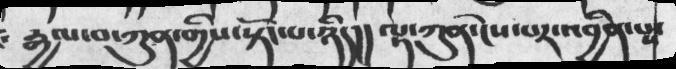རྒྱལ་བ་ཀུན་གྱིས་སྟོང་པ་ཉིད།།   ལྟ་ཀུན་ངེས་པར་འབྱིན་པས་
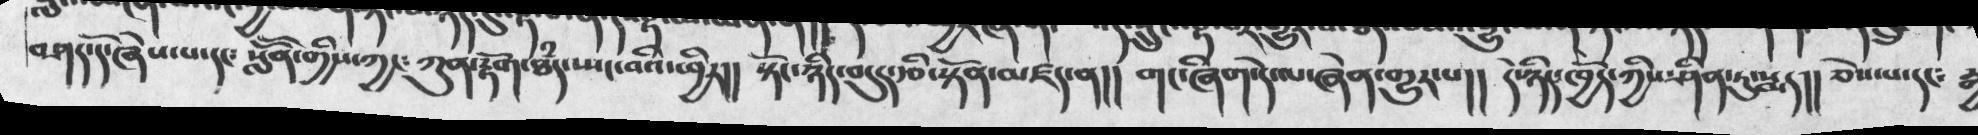བཤད་དོ་ཞེས་པ་དང་  སློོན་གྱིས་ཀྱང་ཀུན་རྟོག་ཐཾད་སྤང་བའི་ཕྱིར།།  སྟོང་ཉིད་བདུད་རྩི་སྟོན་མཛད་ན།།  གང་ཞིག་དེ་ལ་ཞེན་གྱུར་པ།།   དེ་ཉིད་ཁྱོད་ཀྱིས་ཤིན་ཏུ་སྨད།། ཅེས་པ་དང༴
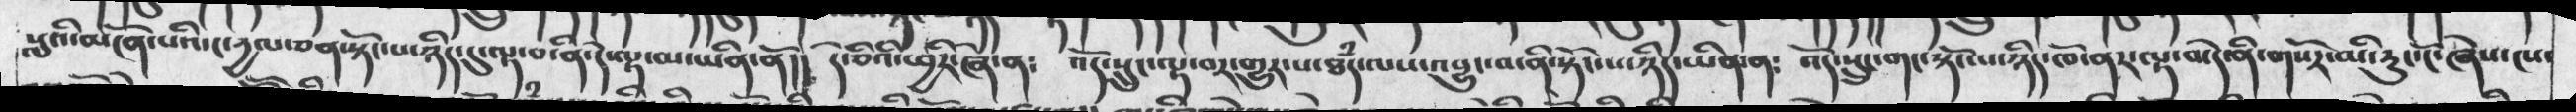སླའི་མངོན་པའི་ང་དྱལ་ཅན་སྟོང་པ་ཉིད་དུ་ལྟ་བ་ནི་དེ་ལྟ་མ་ཡིན་ནོ།།  དེ་ཅིའི་ཕྱིར་ཞེ་ན༴   འོད་སྲུང་ལྟ་བར་གྱུར་པ་ཐཾད་ལས་འབྱུང་བ་ནི་སྟོང་པ་ཉིད་ཡིན་ན༴   འོད་སྲུང་གང་སྟོང་པ་ཉིད་ཁོ་ནར་ལྟ་བ་དེ་ནི་གསོར་མི་རུང་ངོ་ཞེས་ངས་
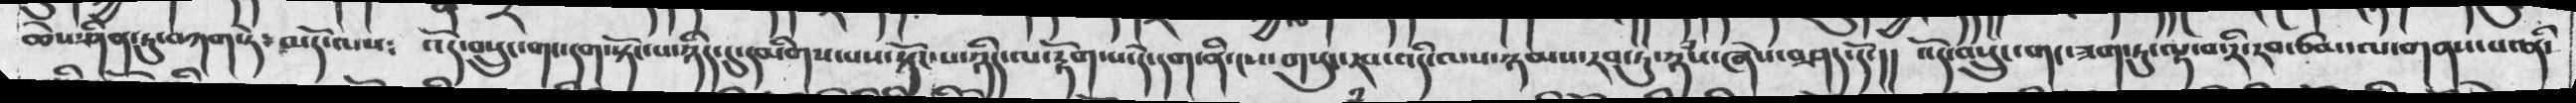ཆེས་ཤིན་ཏུ་བཀག་ཏེ་མདོ་ལས༴  འོད་བསྲུང་གང་དག་སྟོང་པ་ཉིད་དུ་དམིགས་པས་སྟོང་པ་ཉིད་ལ་རྟོག་པ་དེ་དག་ནི་ངས་གསུང་རབ་འདི་ལས་ཉཾས་ཞེས་བཤད་དོ་།།  འོད་བསྲུང་གང་ཟག་ཏུ་ལྟ་བ་རི་རབ་ཙམ་ལ་གནས་པ་ནི་
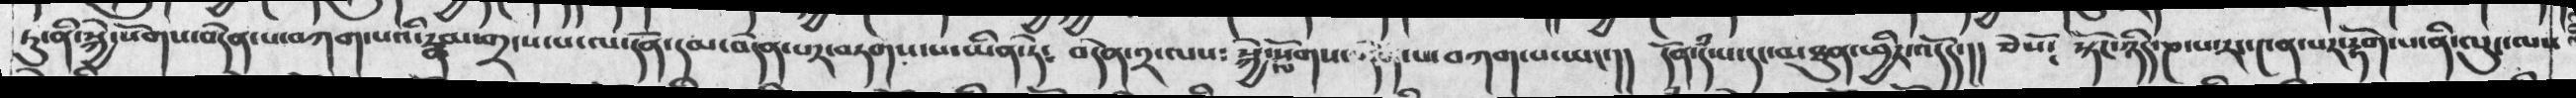ཏུ་ནི་སྐྱེ་སོགས་བདེན་པ་བཀག་པའི་རྣམ་གྲངས་པ་ལ་དོན་དམ་བདེན་པར་བཏགས་པ་ཡིན་ཏེ༴   བདེན་༢་ལས་སྐྱེ་ལ་སོགས་བདེན་པ་བཀག་པ་ཡང་།།  དོན་དཾ་པ་དང་མཐུན་ཕྱིར་འདོད་།།  ཅེསོ༴  སྟོང་ཉིད་ཎ་པ་རང་༤ན་པར་རྟོག་པ་ནི་ལུང་ལས
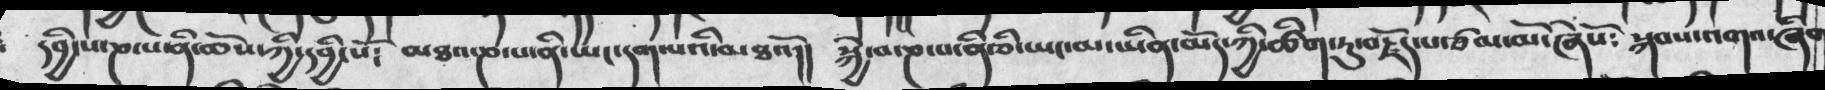དབྱིངས་ཎ་པ་ནི་ཆོས་ཀྱི་དབྱིངསོ༴ མཐའ་ཎ་པ་ནི་ཡང་དག་པའི་མཐའོ།། སྐྱེ་བ་ཎ་པ་ནི་ཅི་ཡང་མ་ཡིན་མོད་ཀྱི་ཚིག་ཏུ་བརྗོད་པ་ཙམ་མོ་ཞེསོ༴ སྐབས་འགའ་ཞིག
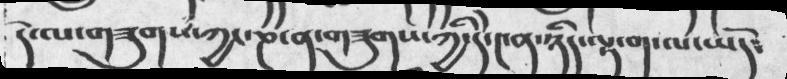དེ་ལ་གཟུགས་ཀྱང་ཎ་ན་གཟུགས་ཀྱི་དེ་༤ན་ཉིད་ལྟ་ག་ལ་ཡོད༴
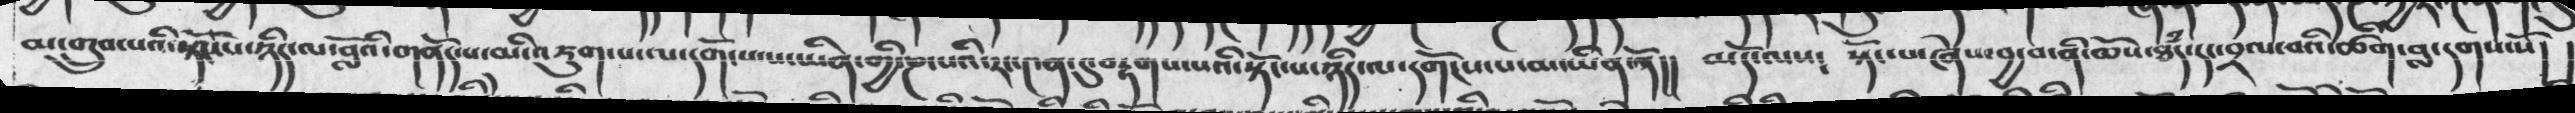མ་གྲུབ་པའི་སྟོང་པ་ཉིད་ལ་བློའི་གནོད་པ་མི་འཇུགས་པ་ལ་དགོངས་པ་ཡིན་གྱི་ཎ་པའི་རང་༤ན་དུ་བརྟགས་པའི་སྟོང་པ་ཉིད་ལ་དགོངས་པ་མ་ཡིན་ནོ།། མདོ་ལས༴   སྟོང་པ་ཞེས་བྱ་བ་ནི་ཆོས་ཐཾད་དང་བྲལ་བའི་ཚིག་བླ་དགས་སོ།  །
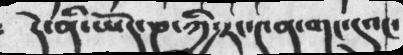དེ་ནི་ཡོད་ཎ་ཀྱི་རང་༤ན་གང་དུའང་
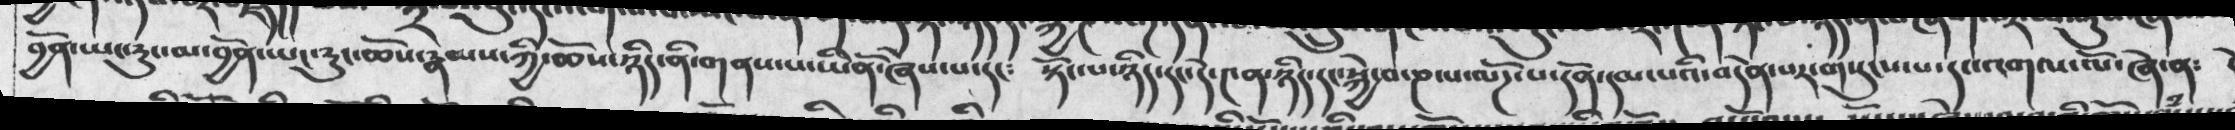བྱོན་ཡང་རུང་མ་བྱོན་ཡང་རུང་ཆོས་རྣམས་ཀྱི་ཆོས་ཉིད་ནི་གནས་པ་ཡིནོ་ཞེས་པ་དང༴   སྟོང་པ་ཉིད་དང་དེ་༤ན་ཉིད་དང་སྐྱེ་བ་ཎ་པ་ལོཌ་པ་དོན་དམ་པའི་བདེན་པར་གསུངས་པ་དང་འགལ་ལོ་ཞེ་ན༴
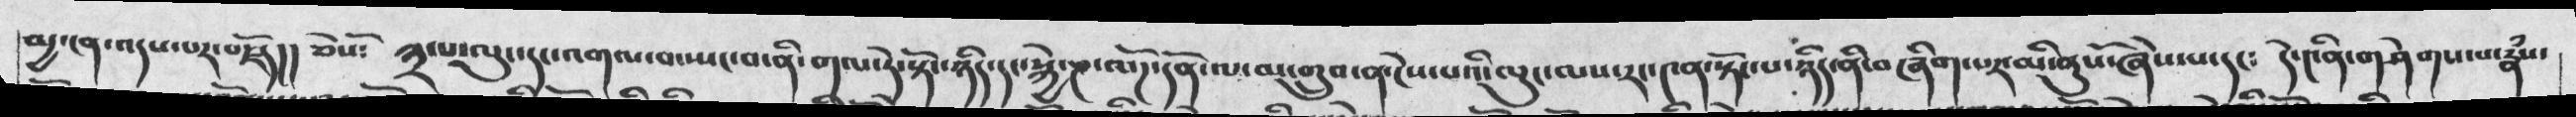མྱ་ངན་འདས་པར་བརྗོད།། ཅེསོ༴ ༣་པ་ལུང་དང་འགལ་བ་སྤང་བ་ནི་གལ་ཏེ་སྟོང་ཉིད་དང་སྐྱེ་ཎ་ལོཌ་དོན་ལ་མ་གྲུབ་ན་ངེས་པའི་ལུང་ལས་རང་༤ན་སྟོང་པ་ཉིད་ནི་བཞིག་པར་མི་ནུསོ་ཞེས་པ་དང༴ དེ་༤ནི་གཤེགས་པ་རྣཾས་
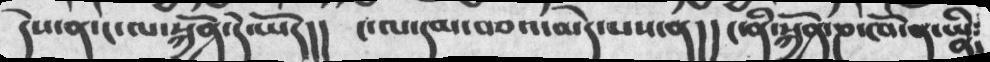དེས་ན་ང་ལ་སྐྱོན་དེ་ཡོད།།  ང་ལ་དམ་བཅའ་མེད་པས་ན།།  ང་ནི་སྐྱོན་ཎ་ཁོ་ན་ཡིན་
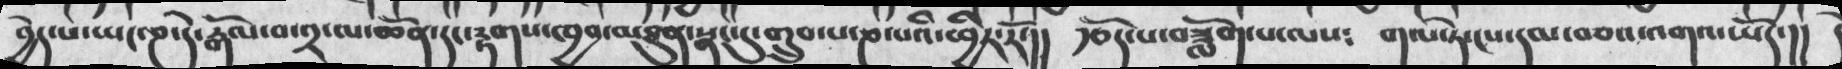བྱེད་པ་ཡང་ཎ་དེ་རྒོལ་བ་༢་ལ་ཆོན་དང་རྟགས་ཁྱབ་མཐུན་སྣང་དུ་གྲུབ་པ་ཎ་པའི་ཕྱིར་རོ་།། རྩོད་པ་བཟློག་པ་ལས༴ གལ་ཏེ་ངས་དམ་བཅའ་འགའ་ཡོད་།།
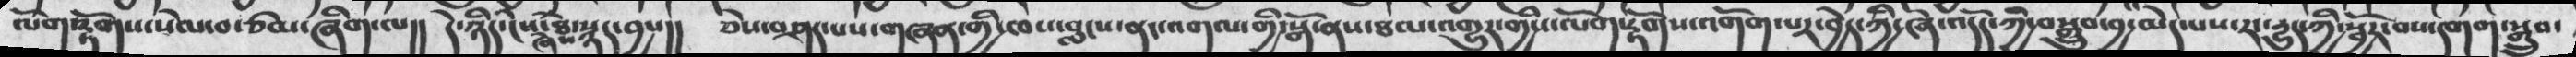ལོག་རྟོགས་སེལ་བ་ཙམ་ཞིག་ལ།།   དེ་ཉིད་ངེས་ཐོས་ཞེས་སྙད་བྱས།།   ཅེས་བཤད་པས་གཞན་གྱི་ཁས་བླངས་ནང་འགལ་གྱི་སྒོ་ནས་ཐལ་འགྱུར་གྱིས་ལོག་རྟོགས་འགོག་པར་བྱེད་ཀྱི་ཞེ་འདོད་ཀྱི་བསྒྲུབ་བྱ་མེད་པས་རང་དྱུད་ཀྱི་སྦྱོར་བས་དགག་སྒྲུབ་
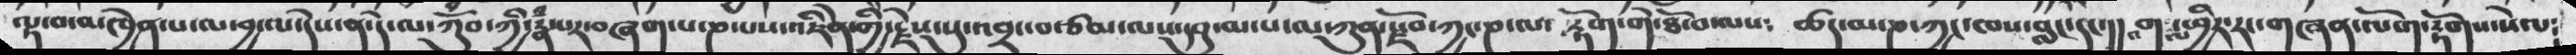ལྟ་བ་མཁྱེན་པ་ལ་བྱ་ལ་དེས་ན་དེ་ལ་ཀོུབ་ཀྱི་རྣཾ་པར་བཞག་པ་ཎ་པས་འཇིེན་གྱི་རྗེས་སུ་འབྲང་བ་ཙམ་ལས་དབུ་མ་པ་ལ་ཀུན་རྫོབ་ཀྱང་ཎ་ལ་ རྟོག་གེ་ཐོ་བ་ལས༴  ཚད་མ་ཎ་ཀྱང་ཁས་བླང་དང་།།  འགལ་ཕྱིར་རང་གཞན་ལོག་རྟོགས་སེལ༴
